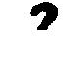2
